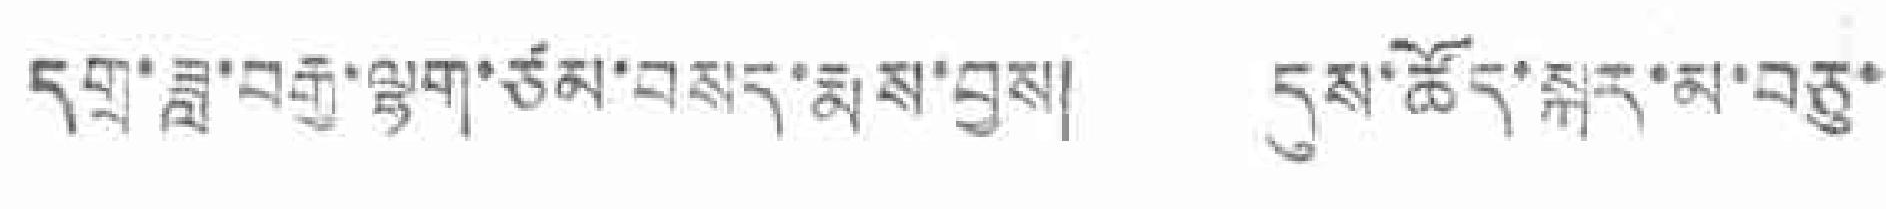དགྲ་ཟླ་བརྒྱ་ལྷག་ཙམ་བསད་རྨས་བྱས། དུས་ཚོད་སྐར་མ་བཅུ་
